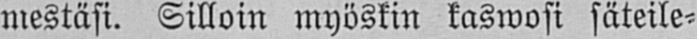mestäsi. Silloin myöskin kaswosi säteile-
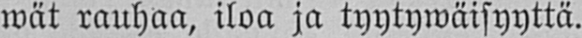wät rauhaa, iloa ja tyytywäisyyttä.
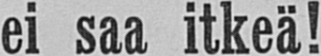Äiti ei saa itkeä!
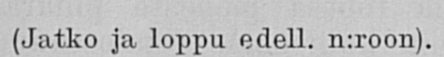(Jatko ja loppu edell. n:roon).
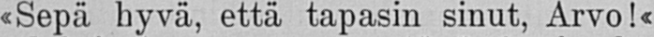«Sepä hyvä, että tapasin sinut, Arvo!«
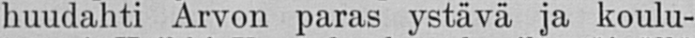huudahti Arvon paras ystävä ja koulu-
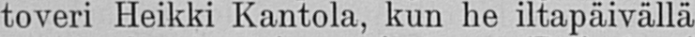toveri Heikki Kantola, kun he iltapäivällä
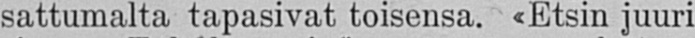sattumalta tapasivat toisensa. «Etsin juuri
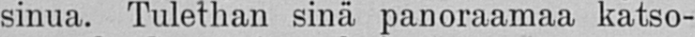sinua. Tulethan sinä panoraamaa katso-
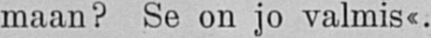maan? Se on jo valmis«.
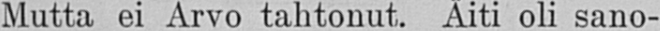Mutta ei Arvo tahtonut. Äiti oli sano-
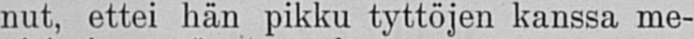nut, ettei hän pikku tyttöjen kanssa me-
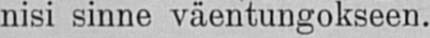nisi sinne väentungokseen.
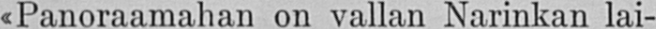«Panoraamahan on vallan Narinkan lai-
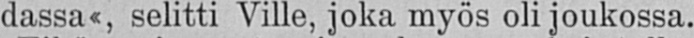dassa«, selitti Ville, joka myös oli joukossa.
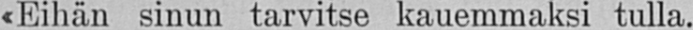«Eihän sinun tarvitse kauemmaksi tulla.
